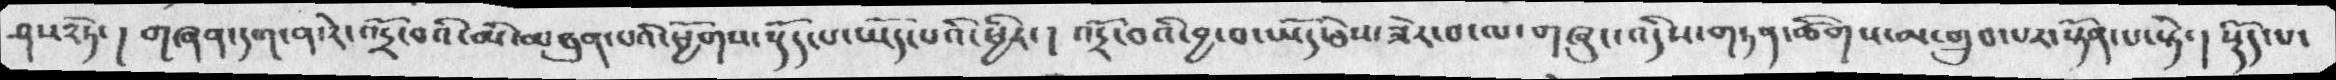ཤས༢ཏེ་། གཞན་དག་ན་རེ་འདྲོ་བའི་མི་མཐུན་པའི་ཕྱོགས་སྡོད་པ་ཡོད་པའི་ཕྱིར་། འདྲོ་བའི་བྱ་བ་ཡོད་ཅེས་ཟེར་བ་ལ་གཞུང་འདིས་གཏན་ཚིགས་མ་གྲུབ་པར་སྟོན་པ་སྟེ་། སྡོད་པ་
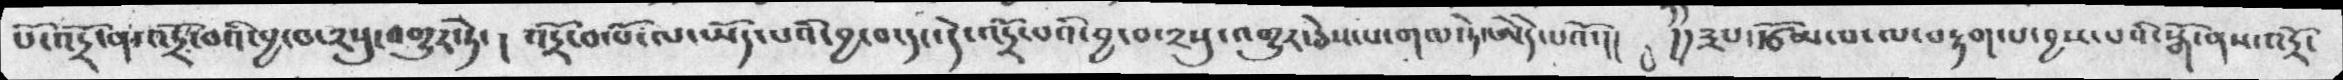པོ་འདྲོ་ན་འདྲོ་བའི་བྱ་བ་༢སུ་འགྱུར་ཏེ་།  འདྲོ་བ་པོ་ལ་ཡོད་པའི་བྱ་བ་དང་དེ་འདྲོ་བའི་བྱ་བ་༢སུ་འགྱུར་ཅེས་པ་གལ་ཏེ་ཨེདེ་པའོ་།། །།༣པ་རྩོམ་པ་ལ་བརྟག་པ་བྱས་པའི་སྒོ་ནས་འདྲོ་
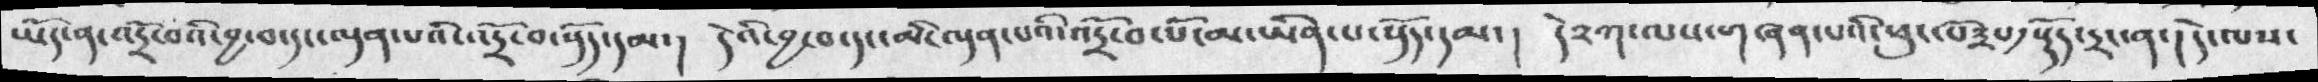ཡོད་ན་འདྲོ་བའི་བྱ་བ་དང་ལྡན་པའི་འདྲོ་བ་སྡོད་དམ་།  དེའི་བྱ་བ་དང་མི་ལྡན་པའི་འདྲོ་བ་པོ་མ་ཡིན་པ་སྡོད་དམ་། དེ༢ཀ་ལས་གཞན་པའི་ཕུང་པོ༣པ༡སྡོད་དྲང་ན་། དེ་ལས་
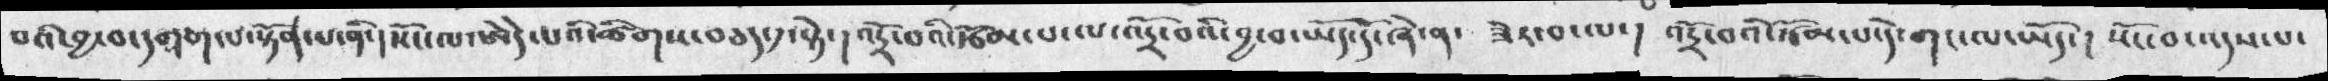པའི་བྱ་བ་དགག་པ་སྟོན་པ་ནི་།སོང་ལ་ཨེདེ་པའི་ཚིགས་བཅད་༡་སྟེ་། འདྲོ་བའི་རྩོམ་པ་ལ་འདྲོ་བའི་བྱ་བ་ཡོད་དོ་ཞེ་ན་ ཟེར་བ་ལ་། འདྲོ་བའི་རྩོམ་པ་དེ་གང་ལ་ཡོད་། སོང་བ་འདས་པ་
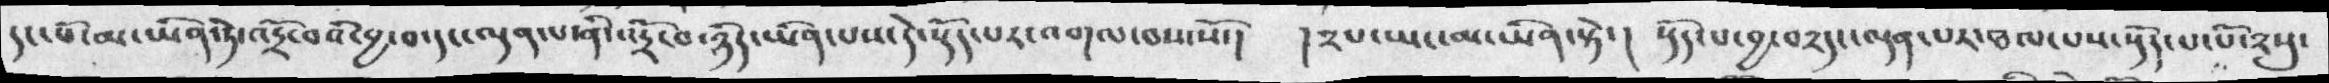དང་པོ་མ་ཡིན་ཏེ་འདྲོ་བའི་བྱ་བ་དང་ལྡན་པ་ནི་འདྲོ་བ་ཉིད་ཡིན་པས་དེ་སྡོད་པར་འགལ་བས་སོ་། །༢པ་ཡང་མ་ཡིན་སྟེ་། སྡོད་པ་བྱ་བ༢དང་ལྡན་པར་ཐལ་པས་སྡོད་པ་པོ་༢སུ་
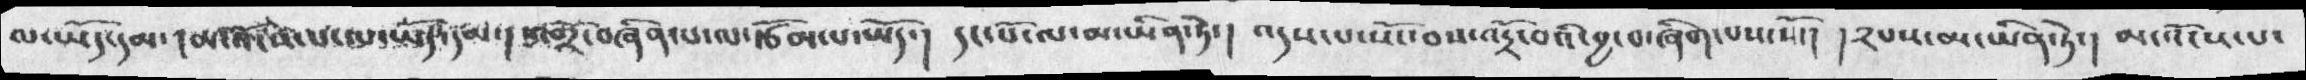ལ་ཡོད་དམ་། མ་འོངས་པ་ལ་ཡོད་དམ་། འགྲོ་བཞིན་པ་ལ་རྩོམ་པ་ཡོད་། དང་པོ་ལ་མ་ཡིན་ཏེ་། འདས་པ་སོང་བས་འདྲོ་བའི་བྱ་བ་ཞིག་པས་སོ་། །༢པས་མ་ཡིན་ཏེ་། མ་འོངས་པ་
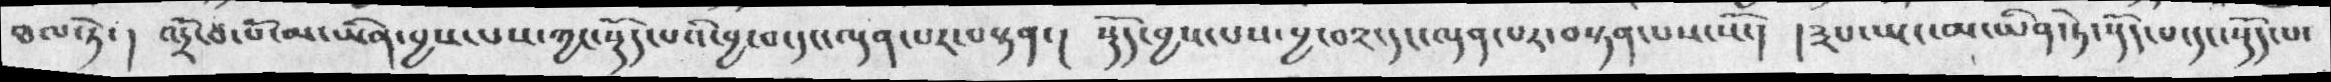ཐལ་ཏེ་། འདྲོ་བ་པོ་མ་ཡིན་བྱས་པས་ཀྱང་སྡོད་པའི་བྱ་བ་དང་ལྡན་པར་བསྟན་། སྡོད་བྱས་པས་བྱ་བ༢་དང་ལྡན་པར་བསྟན་པས་སོ་། །༣པ་ཡང་མ་ཡིན་ཏེ་སྡོད་པ་དང་སྡོད་པ་
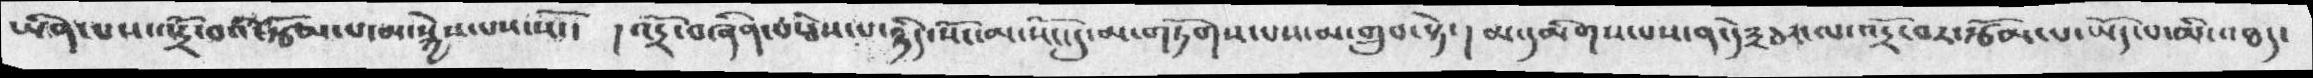ཡིན་པས་འདྲོ་བའི་རྩོམ་པ་མ་སྐྱེས་པས་སོ་  །འདྲོ་བཞིན་པ་ཅེས་པ་ཉིད་སོང་མ་སོང་དུ་མ་གཏོགད་པས་མ་གྲུབ་སྟེ་། མ་དམིགས་པས་ན་དེ༣ཅར་ལ་འདྲོ་བར་རྩོམ་པ་ཡོད་པ་མི་འཐད་
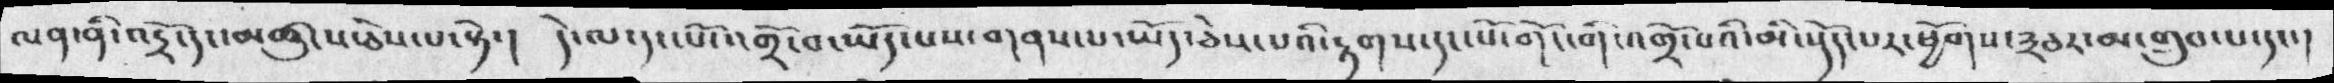ལན་ནི་འདྲོ་དང་མཚུངས་ཅེས་པ་སྟེ་།  དེ་ལ་དང་པོ་འགྲོ་བ་ཡོད་པས་གནས་པ་ཡོད་ཅེས་པའི་རྟགས་དང་པོ་གོང་གི་འགྲོ་པའི་མི་སྡོད་པར་ཕྱོགས་༣ཅར་མ་གྲུབ་པ་དང་།
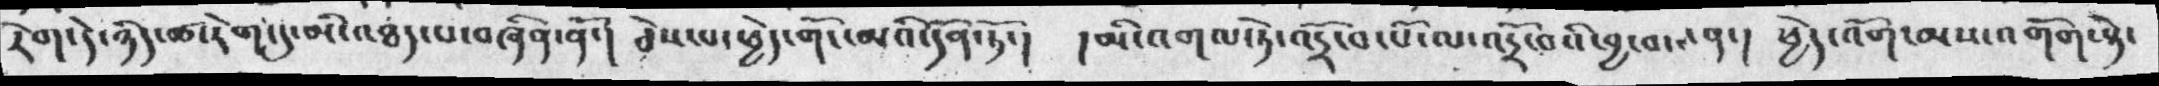རེག་དེ་ཉིད་ཚ་རེག་དུ་མི་འཐད་པ་བཞིན་ནོ་།  ཅེས་པ་ཕྱེད་གོང་མའི་དོན་ཏོ་། །མི་འགལ་ཏེ་འདྲོ་བ་པོ་ལ་འདྲོ་བའི་བྱ་བས་ན་།  ཕྱེད་འོག་མས་འགོག་སྟེ་
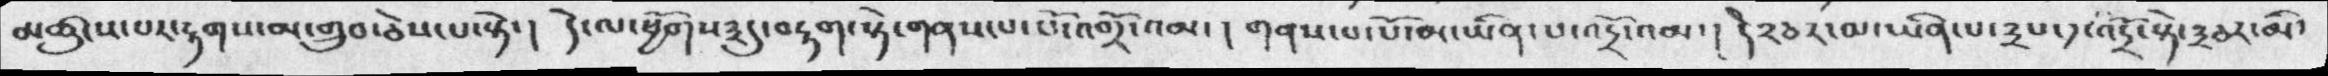མཚུངས་པར་རྟགས་མ་གྲུབ་ཅེས་པ་སྟེ་ །  དེ་ལ་ཕྱོགས༣དུ་བརྟག་སྟེ་གནས་པ་པོ་འགྲོ་འམ་ ། གནས་པ་པོ་མ་ཡིན་པ་འདྲོ་འམ་། དེ༢ཅར་མ་ཡིན་པ་༣པ་ད་འདྲོ་སྟེ་༣ཅར་མི་
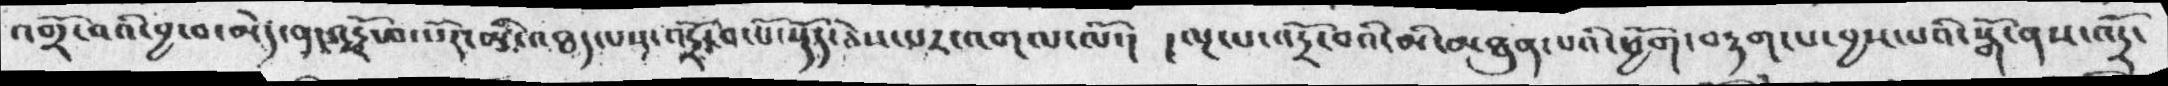འགྲོ་བའི་བྱ་བ་མེད་ན་འདྲོ་བ་པོར་མི་འཐད་པས་འདྲོ་བ་པོ་སྡོད་ཅེས་པར་འགལ་ལོ་།  །ལྔ་པ་འདྲོ་བའི་མི་མཐུན་པའི་ཕྱོག་བརྟག་པ་བྱས་པའི་སྒོ་ནས་འདྲོ་
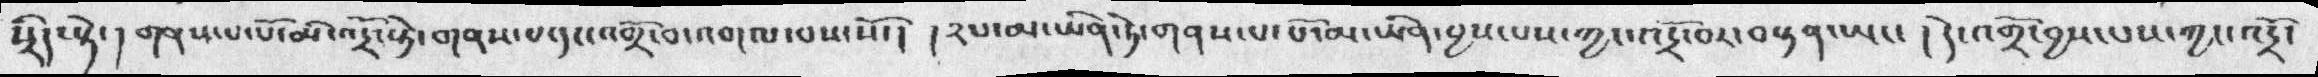སྲིད་སྟེ་།  གནས་པ་པོ་མི་འདྲོ་སྟེ་གནས་པ་དང་འགྲོ་བ་འགལ་པས་སོ་།  །༢པ་མ་ཡིན་ཏེ་གནས་པ་པོ་མ་ཡིན་བྱས་པས་ཀྱང་འདྲོ་བར་བསྟན་ཡང་ ། དེ་འགྲོ་བྱས་པས་ཀྱང་འདྲོ་
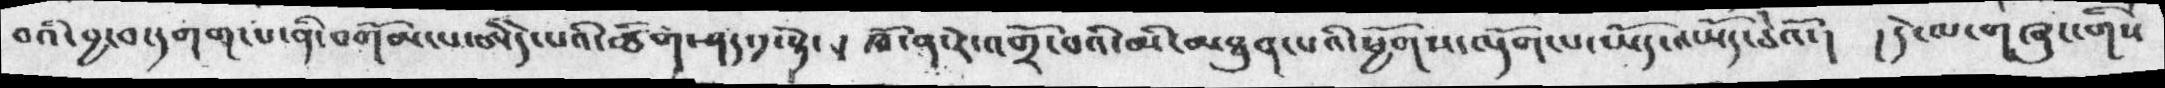བའི་བྱ་བ་དགག་པ་ནི་བགོམ་པ་ཨེདེ་པའི་ཚིག་ཤད་༡་སྟེ་། ཁོ་ན་རེ་འགྲོ་བའི་མི་མཐུན་པའི་ཕྱོགས་ལྡོག་པ་ཡོད་ཡོད་ཅེའོ་།  །དེ་ལ་གཞུང་གིས
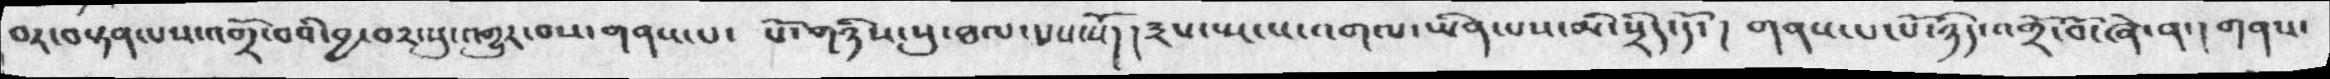བར་བསྟན་པས་འགྲོ་བའི་བྱ་བ༢་སུ་འགྱུར་བས་གནས་པ་ པོ་གཉིས་སུ་ཐལ་པས་སོ་། །༣པ་སྤངས་འགལ་ཡིན་པས་མི་སྲིད་དོ་། གནས་པ་པོ་ཉིད་འགྲོ་བོ་ཞེ་ན་། གནས་
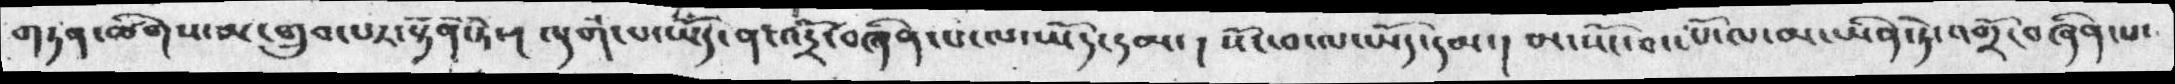གཏན་ཚིགས་མ་གྲུབ་པར་སྟོན་ཏེ་། ལྡོག་པ་ཡོད་ན་འདྲོ་བཞིན་པ་ལ་ཡོད་དམ་། སོང་བ་ལ་ཡོད་དམ་། མ་སོང་བ་པོ་ལ་མ་ཡིན་ཏེ་འགྲོ་བཞིན་པ་
